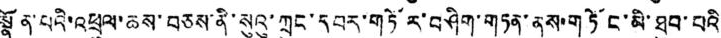སྣོན་པའི་འཕྲུལ་ཆས་བཅས་ནི་སུའུ་ཀྲུང་དབར་གཏོར་བཤིག་གཏན་ནས་གཏོང་མི་ཐུབ་པའི
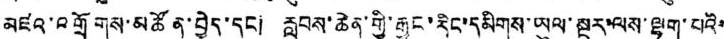མཛའ་འགྲོགས་མཚོན་བྱེད་དང། རླབས་ཆེན་གྱི་རྒྱང་རིང་དམིགས་ཡུལ་སྔར་ལས་ལྷག་པའི་
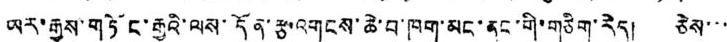ཡར་རྒྱས་གཏོང་རྒྱུའི་ལས་དོན་རྩ་འགངས་ཆེ་བ་ཁག་མང་ནང་གི་གཅིག་རེད། ཅེས་་་
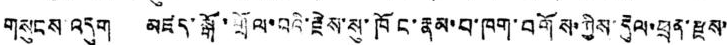གསུངས་འདུག མཛད་སྒོ་གྲོལ་བའི་རྗེས་སུ་ཁོང་རྣམ་པ་ཁག་བགོས་ཀྱིས་རྡུལ་ཕྲན་རྫས་
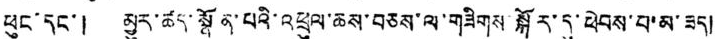ཕུང་དང་། མྱུར་ཚད་སྣོན་པའི་འཕྲུལ་ཆས་བཅས་ལ་གཟིགས་སྐོར་དུ་ཕེབས་པ་མ་ཟད།
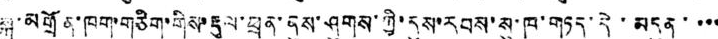སྐུ་མགྲོན་ཁག་གཅིག་གིས་རྡུལ་ཕྲན་ནུས་ཤུགས་ཀྱི་དུས་རབས་སུ་ཁ་གཏད་དེ་མདུན་་་་
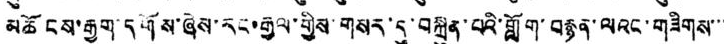མཆོངས་རྒྱག་དགོས་ཞེས་རང་རྒྱལ་གྱིས་གསར་དུ་བསྐྲུན་པའི་གློག་བརྙན་ལའང་གཟིགས་་་
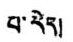པ་རེད།
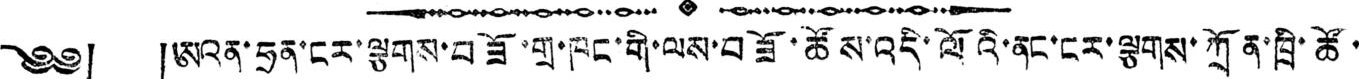༄༅། །ཨའན་ཧྲན་ངར་ལྕགས་བཟོ་གྲ་ཁང་གི་ལས་བཟོ་ཚོས་འདི་ལོའི་ནང་ངར་ལྕགས་ཀྲོན་ཁྲི་ཚོ་
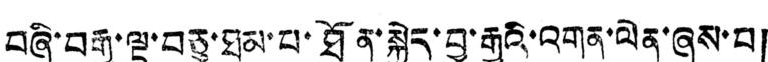བཞི་བརྒྱ་ལྔ་བཅུ་ཐམ་པ་ཐོན་སྐྱེད་བྱ་རྒྱུའི་འགན་ལེན་ཞུག་བ།
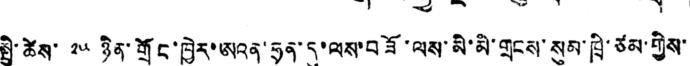སྤྱི་ཚེས་ ༢༥ ཉིན་གྲོང་ཁྱེར་ཨའན་ཧྲན་དུ་ལས་བཟོ་ལས་མི་མི་གྲངས་སུམ་ཁྲི་ཙམ་གྱིས་
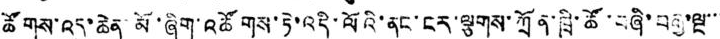ཚོགས་འདུ་ཆེན་མོ་ཞིག་འཚོགས་ཏེ་འདི་ལོའི་ནང་ངར་ལྕགས་ཀྲོན་ཁྲི་ཚོ་བཞི་བརྒྱ་ལྔ་་་
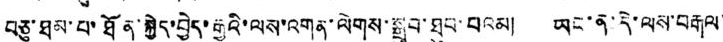བཅུ་ཐམ་པ་ཐོན་སྐྱེད་བྱེད་རྒྱུའི་ལས་འགན་ལེགས་སྒྲུབ་ཐུབ་པའམ། ཡང་ན་དེ་ལས་བརྒལ་
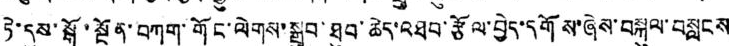ཏེ་དུས་སྒོ་སྔོན་བཀག་གོང་ལེགས་སྒྲུབ་ཐུབ་ཆེད་འཐབ་རྩོལ་བྱེད་དགོས་ཞེས་བསྐུལ་བསླངས
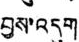བྱས་འདུག
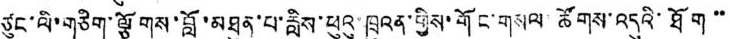ཙུང་ལི་གཅིག་ལྕོགས་བློ་མཐུན་པ་རླིས་ཕུའུ་ཁྲུའན་གྱིས་གོང་གསལ་ཚོགས་འདུའི་ཐོག་་
